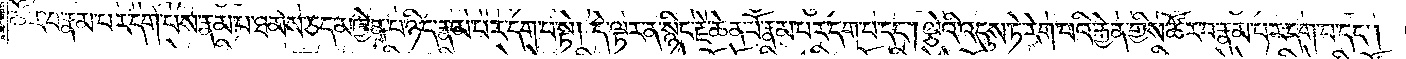ཚོར་བ་རྣམ་པར་དག་པས་རྣམ་པ་ཐམས་ཅད་མཁྱེན་པ་ཉིད་རྣམ་པར་དག་པ་སྟེ། དེ་ལྟར་ན་སྙིང་རྗེ་ཆེན་པོ་རྣམ་པར་དག་པ་དང༌། ལྕེའི་འདུས་ཏེ་རེག་པའི་རྐྱེན་གྱིས་ཚོར་བ་རྣམ་པར་དག་པ་དང༌།
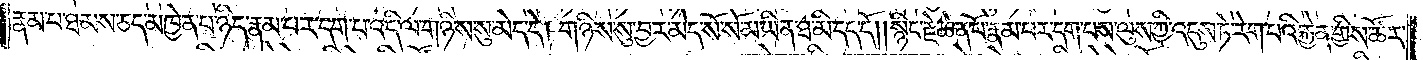རྣམ་པ་ཐམས་ཅད་མཁྱེན་པ་ཉིད་རྣམ་པར་དག་པ་འདི་ལ་གཉིས་སུ་མེད་དེ། གཉིས་སུ་བྱར་མེད་སོ་སོ་མ་ཡིན་ཐ་མི་དད་དོ། །སྙིང་རྗེ་ཆེན་པོ་རྣམ་པར་དག་པས་ལུས་ཀྱི་འདུས་ཏེ་རེག་པའི་རྐྱེན་གྱིས་ཚོར་
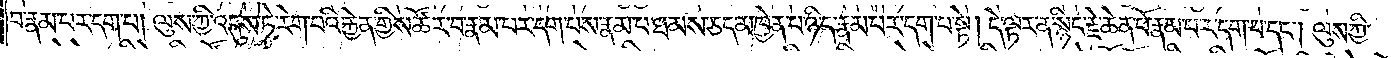བ་རྣམ་པར་དག་པ། ལུས་ཀྱི་འདུས་ཏེ་རེག་པའི་རྐྱེན་གྱིས་ཚོར་བ་རྣམ་པར་དག་པས་རྣམ་པ་ཐམས་ཅད་མཁྱེན་པ་ཉིད་རྣམ་པར་དག་པ་སྟེ། དེ་ལྟར་ན་སྙིང་རྗེ་ཆེན་པོ་རྣམ་པར་དག་པ་དང༌། ལུས་ཀྱི་
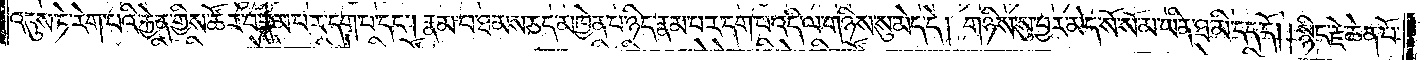འདུས་ཏེ་རེག་པའི་རྐྱེན་གྱིས་ཚོར་བ་རྣམ་པར་དག་པ་དང༌། རྣམ་པ་ཐམས་ཅད་མཁྱེན་པ་ཉིད་རྣམ་པར་དག་པ་འདི་ལ་གཉིས་སུ་མེད་དེ། གཉིས་སུ་བྱར་མེད་སོ་སོ་མ་ཡིན་ཐ་མི་དད་དོ། །སྙིང་རྗེ་ཆེན་པོ་
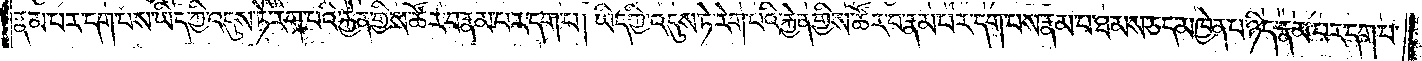རྣམ་པར་དག་པས་ཡིད་ཀྱི་འདུས་ཏེ་རེག་པའི་རྐྱེན་གྱིས་ཚོར་བ་རྣམ་པར་དག་པ། ཡིད་ཀྱི་འདུས་ཏེ་རེག་པའི་རྐྱེན་གྱིས་ཚོར་བ་རྣམ་པར་དག་པས་རྣམ་པ་ཐམས་ཅད་མཁྱེན་པ་ཉིད་རྣམ་པར་དག་པ་
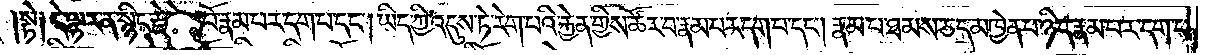སྟེ༑ དེ་ལྟར་ན་སྙིང་རྗེ་ཆེན་པོ་རྣམ་པར་དག་པ་དང༌། ཡིད་ཀྱི་འདུས་ཏེ་རེག་པའི་རྐྱེན་གྱིས་ཚོར་བ་རྣམ་པར་དག་པ་དང༌། རྣམ་པ་ཐམས་ཅད་མཁྱེན་པ་ཉིད་རྣམ་པར་དག་པ་
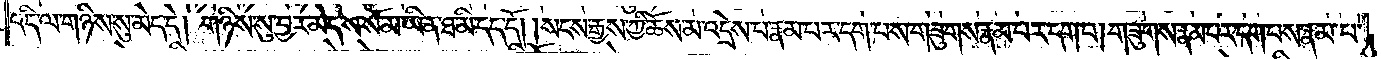འདི་ལ་གཉིས་སུ་མེད་དེ། གཉིས་སུ་བྱར་མེད་སོ་སོ་མ་ཡིན་ཐ་མི་དད་དོ། །སངས་རྒྱས་ཀྱི་ཆོས་མ་འདྲེས་པ་རྣམ་པར་དག་པས་གཟུགས་རྣམ་པར་དག་པ། གཟུགས་རྣམ་པར་དག་པས་རྣམ་པ་
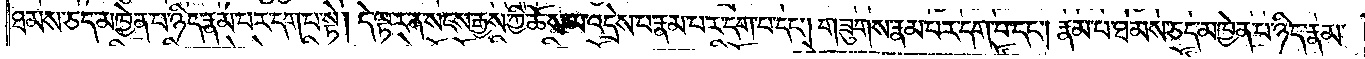ཐམས་ཅད་མཁྱེན་པ་ཉིད་རྣམ་པར་དག་པ་སྟེ། དེ་ལྟར་ན་སངས་རྒྱས་ཀྱི་ཆོས་མ་འདྲེས་པ་རྣམ་པར་དག་པ་དང༌། གཟུགས་རྣམ་པར་དག་པ་དང༌། རྣམ་པ་ཐམས་ཅད་མཁྱེན་པ་ཉིད་རྣམ་
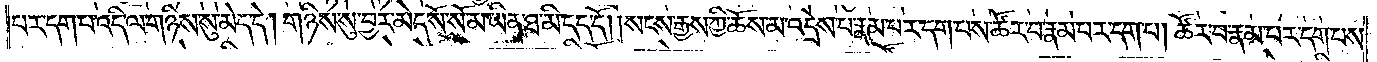པར་དག་པ་འདི་ལ་གཉིས་སུ་མེད་དེ། གཉིས་སུ་བྱར་མེད་སོ་སོ་མ་ཡིན་ཐ་མི་དད་དོ། །སངས་རྒྱས་ཀྱི་ཆོས་མ་འདྲེས་པ་རྣམ་པར་དག་པས་ཚོར་བ་རྣམ་པར་དག་པ། ཚོར་བ་རྣམ་པར་དག་པས་
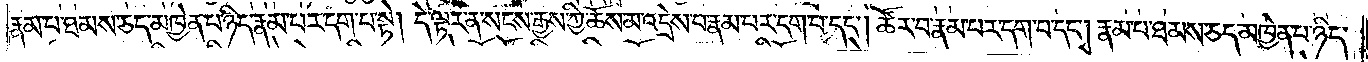རྣམ་པ་ཐམས་ཅད་མཁྱེན་པ་ཉིད་རྣམ་པར་དག་པ་སྟེ། དེ་ལྟར་ན་སངས་རྒྱས་ཀྱི་ཆོས་མ་འདྲེས་པ་རྣམ་པར་དག་པ་དང༌། ཚོར་བ་རྣམ་པར་དག་པ་དང༌། རྣམ་པ་ཐམས་ཅད་མཁྱེན་པ་ཉིད་
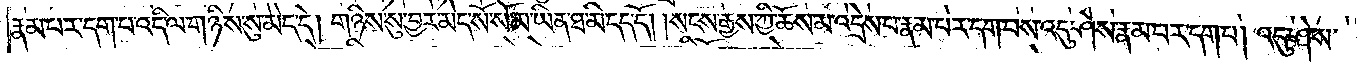རྣམ་པར་དག་པ་འདི་ལ་གཉིས་སུ་མེད་དེ། གཉིས་སུ་བྱར་མེད་སོ་སོ་མ་ཡིན་ཐ་མི་དད་དོ། །སངས་རྒྱས་ཀྱི་ཆོས་མ་འདྲེས་པ་རྣམ་པར་དག་པས་འདུ་ཤེས་རྣམ་པར་དག་པ། འདུ་ཤེས་
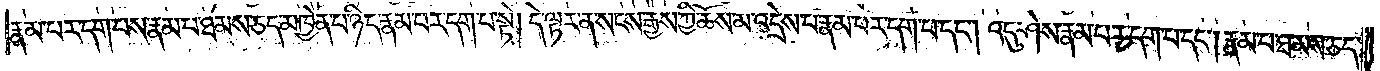རྣམ་པར་དག་པས་རྣམ་པ་ཐམས་ཅད་མཁྱེན་པ་ཉིད་རྣམ་པར་དག་པ་སྟེ། དེ་ལྟར་ན་སངས་རྒྱས་ཀྱི་ཆོས་མ་འདྲེས་པ་རྣམ་པར་དག་པ་དང༌། འདུ་ཤེས་རྣམ་པར་དག་པ་དང༌། རྣམ་པ་ཐམས་ཅད་
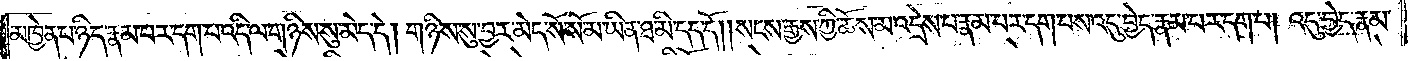མཁྱེན་པ་ཉིད་རྣམ་པར་དག་པ་འདི་ལ་གཉིས་སུ་མེད་དེ། གཉིས་སུ་བྱར་མེད་སོ་སོ་མ་ཡིན་ཐ་མི་དད་དོ། །སངས་རྒྱས་ཀྱི་ཆོས་མ་འདྲེས་པ་རྣམ་པར་དག་པས་འདུ་བྱེད་རྣམ་པར་དག་པ། འདུ་བྱེད་རྣམ་
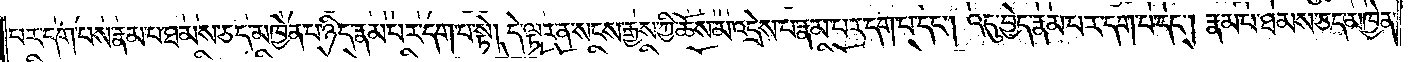པར་དག་པས་རྣམ་པ་ཐམས་ཅད་མཁྱེན་པ་ཉིད་རྣམ་པར་དག་པ་སྟེ། དེ་ལྟར་ན་སངས་རྒྱས་ཀྱི་ཆོས་མ་འདྲེས་པ་རྣམ་པར་དག་པ་དང༌། འདུ་བྱེད་རྣམ་པར་དག་པ་དང༌། རྣམ་པ་ཐམས་ཅད་མཁྱེན་
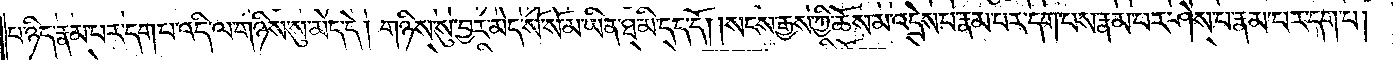པ་ཉིད་རྣམ་པར་དག་པ་འདི་ལ་གཉིས་སུ་མེད་དེ། གཉིས་སུ་བྱར་མེད་སོ་སོ་མ་ཡིན་ཐ་མི་དད་དོ། །སངས་རྒྱས་ཀྱི་ཆོས་མ་འདྲེས་པ་རྣམ་པར་དག་པས་རྣམ་པར་ཤེས་པ་རྣམ་པར་དག་པ།
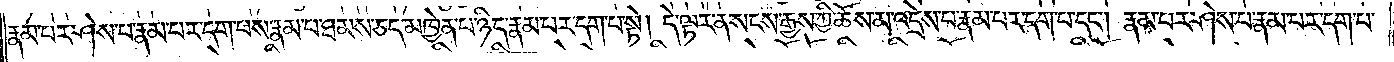རྣམ་པར་ཤེས་པ་རྣམ་པར་དག་པས་རྣམ་པ་ཐམས་ཅད་མཁྱེན་པ་ཉིད་རྣམ་པར་དག་པ་སྟེ། དེ་ལྟར་ན་སངས་རྒྱས་ཀྱི་ཆོས་མ་འདྲེས་པ་རྣམ་པར་དག་པ་དང༌། རྣམ་པར་ཤེས་པ་རྣམ་པར་དག་པ་
